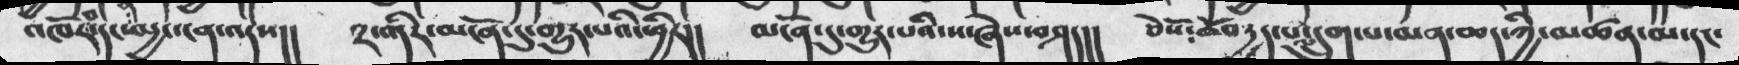འཁོར་བ་དང་མྱ་ངན་འདས།།  ༢་འདིར་མངོན་དུ་གྱུར་པའི་ཕྱིར།།  མངོན་དུ་གྱུར་པའི་ས་ཞེས་བཤད།།  ཅེསོ༴ ཆོས་བདྱད་པ་དྲུག་པ་མན་ཆད་ཀྱི་མཚན་མ་དང་
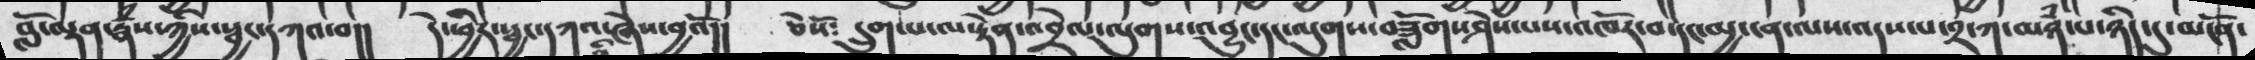བློ་ལྡན་རྣཾས་ཀྱིས་སྦྱང་དཀའ་བ།།   དེ་ཕྱིར་སྦྱང་དཀའ་ཞེས་བྱའོ།།   ཅེསོ༴   དྲུག་པ་ལ་རྟེན་འབྲེལ་ལུགས་འབྱུང་དང་ལུགས་བཟློགས་ཤེས་པས་འཁོར་བ་ལས་འདས་པ་༢་ཀ་མཉཾ་པ་ཉིད་དུ་མངོན་
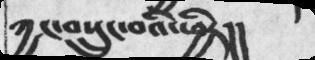ཀྱང་བསྲུང་བའི་ཕྱིར།།
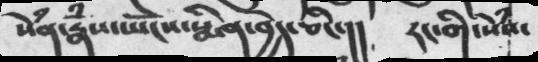སེཾན་རྣཾས་ཡོངས་སྨིན་བྱེད་ཅིང་།།   རང་གི་སེཾས་
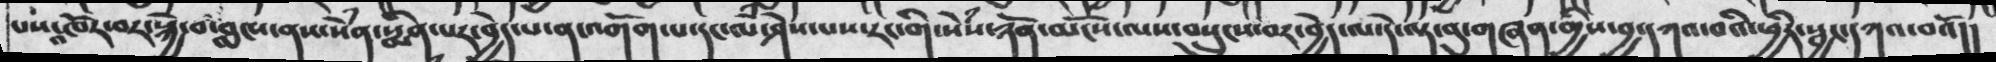པས་འཁོར་བར་སྐྱེ་བ་བླངས་ནས་སེཾན་སྨིན་པར་བྱེད་པ་ན་འགོག་པ་དང་མི་ཤེས་པས་རང་གི་སེཾས་ཉོན་མྱོངས་ལས་བསྲུངས་བར་བྱེད་ལ་དེ་ལྟ་བུ་གཞན་གྱིས་བྱ་དཀའ་བའི་ཕྱིར་སྦྱང་དཀའ་བའོ།།
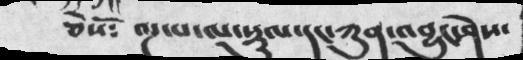ཅེསོ༴  ལྔ་པ་ལ་སྡུལ་དང་ཀུན་འབྱུང་ཤེས་
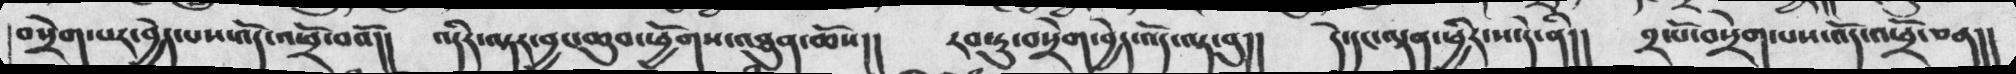བསྲེག་པར་བྱེད་པས་འོད་འཕྲོ་བའོ།།  འདིར་ལྟར་བྱང་ཆུབ་ཕྱོགས་འཐུན་ཆོས།།   རབ་ཏུ་བསྲེག་བྱེད་འོད་ལྟ་བུ།།  དེ་དང་ལྡན་ཕྱིར་ས་དེ་ནི།།  ༢་པོ་བསྲེག་པས་འོད་འཕྲོ་ཅན།།
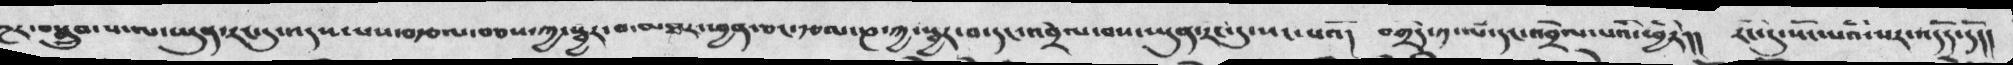སྔར་བསྒྲུབ་པ་ལ་ཡུན་རང་དུ་འདས་པས་བརྩལ་བཅས་ཀྱ་སྦྱར་བ་མཐར་ཕྱན་ཅང་རྩལ་ཎ་ཀྱ་སྦྱར་བ་དང་འབྲེལ་བས་ཡུན་རང་དུ་སང་པའོ།  བཀྲིད་༡་པ་དང་འབྲེལ་པའི་ཕྱིར།།  རིང་དུ་སོང་པའི་སར་འདོད་དོ།།
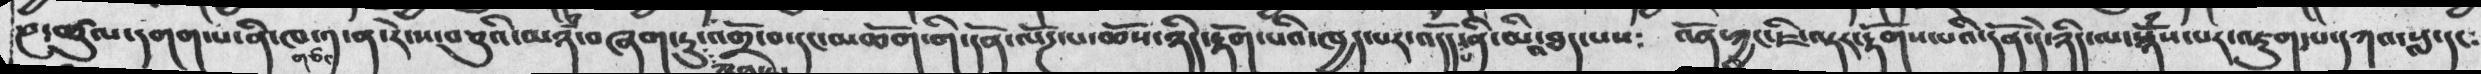ཎ་ཚུལ་དགག་པ་ནི་ཁ་༡་ན་རེ་ས་་བཅུའི་མཉཾ་བཞག་ཏུ་ཀུན་འགྲོ་བ་དང་མཆོག་གི་དོན་ལོཌ་པ་ཆོས་ཉིད་རྟོག་པའི་ཁྱད་པར་འདོད་པ་ནི་མི་འཐད་པས༴   འོན་ཀྱང་ཇི་ལྟར་རྟོགས་པའི་དོན་དེ་ཉིད་མ་སྙོཾས་པར་འཇུག་པ་དཀའ་སླ་དང༴
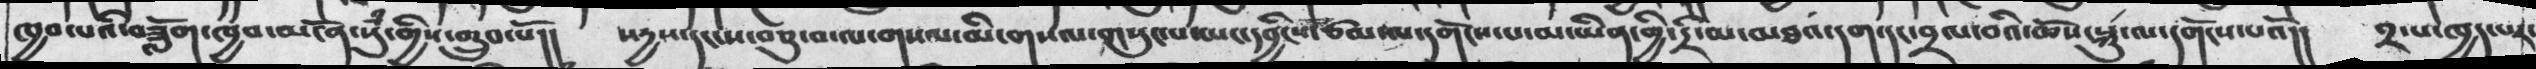ཁྱབ་པའི་བཟློག་ཁྱབ་མངོན་སུཾ་གྱིས་གྲུབ་པོ།།  སདྱས་དང་ས་བཅུ་བ་ལ་གསལ་མི་གསལ་གསུང་པ་ཡང་དབྱིངས་ཙམ་ལ་དགོངས་པ་མ་ཡིན་གྱི་དྲི་མ་མཐའ་དག་དང་བྲལ་བའི་ཆོས་སྐུ་ལ་དགོངས་པའོ།། ༢་པ་ཁྱད་པར་
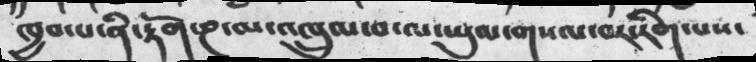ཁྱབ་པ་ནི་རྟོག་ཎ་མ་འཁྲུལ་པ་ལ་ཡུལ་གསལ་བར་རིག་པས་
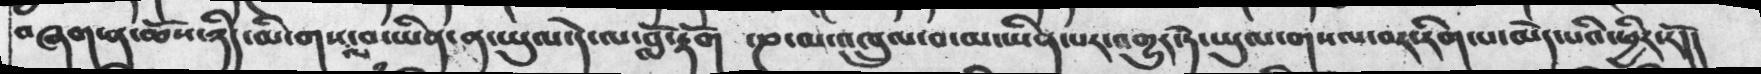བཞག་ན་ཆོས་ཉིད་མི་གསལ་བ་ཡིན་ན་ཡུལ་དེལ་བློ་རྟོག  ་ཎ་མ་འཁྲུལ་བ་མ་ཡིན་པར་འགྱུར་ཏེ་ཡུལ་གསལ་བར་རིག་པ་མེད་པའི་ཕྱིར་རོ།།
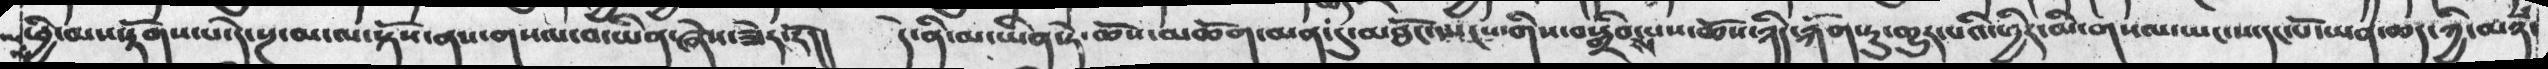ཕྱི་མས་རྟོགས་པ་དེ་སྔ་མ་ལ་སྟོས་ནས་གསལ་བ་ཡིན་ཞེས་ཟེར་རོ།།  དེ་ནི་མ་ཡིན་ཏེ་ཆོས་མཆོག་མན་དུ་མཐོང་སྤངས་གིས་བསྒྲིབས་པས་ཆོས་ཉིད་རྐོག་ཏུ་གྱུར་པའི་ཕྱིར་མི་གསལ་ཡང་ས་དང་པོ་ཡན་ཆད་ཀྱི་མཉཾ་
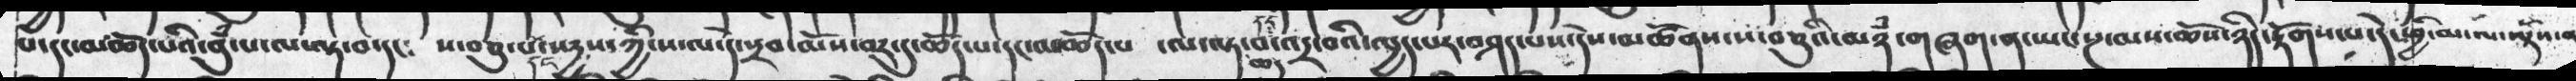པ་དང་མཆོད་པའི་བུཾ་པ་ལ་ལྟ་བ་དང༴  ས་བཅུ་པ་དང་སདྱས་ཀྱི་ས་ལ་དེ་སྲབ་མོས་བར་དུ་ཆོད་པ་དང་མཆོད་པ ་ལ་ལྟ་ཆད་པ་དང་འདྲ་བའི་ཁྱད་པར་བཤད་པས་དེས་མཚོནས་ས་བཅུའི་མཉཾ་བཞག་ན་ཡང་སྔ་མས་ཆོས་ཉིད་རྟོགས་པ་དེ་ཕྱི་མ་ལ་ལྟོས་པ
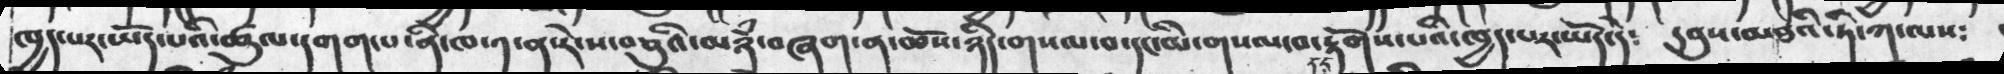ཁྱད་པར་ཡོད་པའི་ཚུལ་དགག་པ་ནི་ཁ་༡་ན་རེ་ས་་བཅུའི་མཉཾ་བཞག་ན་ཆོས་ཉིད་གསལ་བ་དང་མི་གསལ་བ་དང་རྟོགས་པའི་ཁྱད་པར་ཡོད་དེ༴   དབུས་མཐའི་ཏི་ཀ་ལས༴
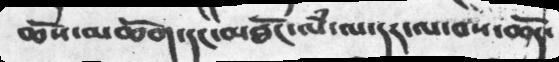ཆོས་མཆོག་དང་མཐོང་ལཾ་ལ་དང་ལ་བས་ཆོད་
